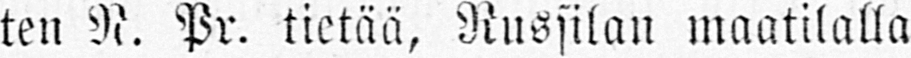ten N. Pr. tietää, Russilan maatilalla
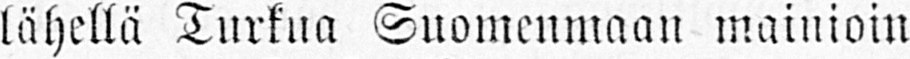lähellä Turkua Suomenmaan mainioin
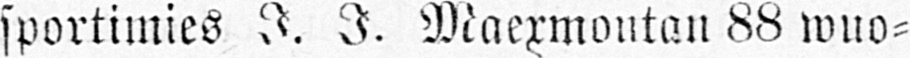sportimies J. J. Maexmontan 88 wuo-
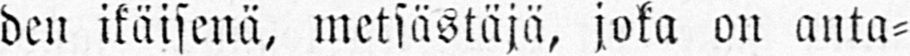den ikäisenä, metsästäjä, joka on anta-
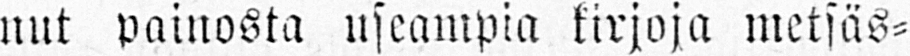nut painosta useampia kirjoja metsäs-
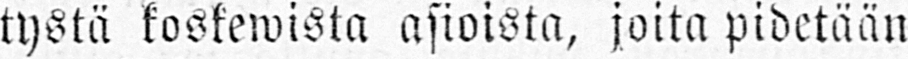tystä koskewista asioista, joita pidetään
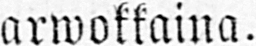arwokkaina.
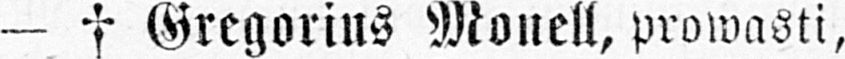— † Gregorius Monell, prowasti,
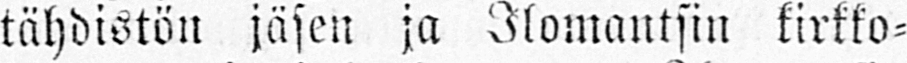tähdistön jäsen ja Ilomantsin kirkko-
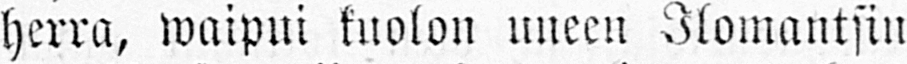herra, waipui kuolon uneen Ilomantsin
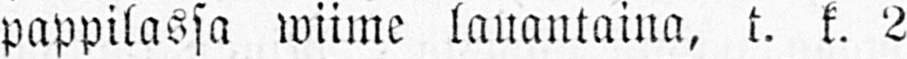pappilassa wiime lauantaina, t. k. 2
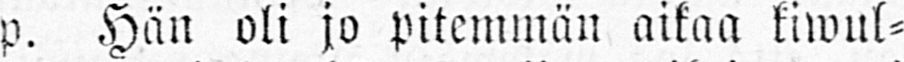p. Hän oli jo pitemmän aikaa kiwul-
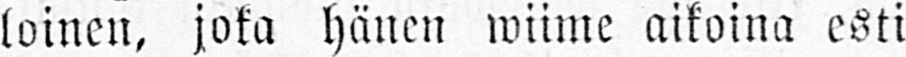loinen, joka hänen wiime aikoina esti
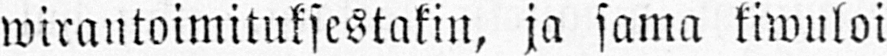wirantoimituksestakin, ja sama kiwuloi-
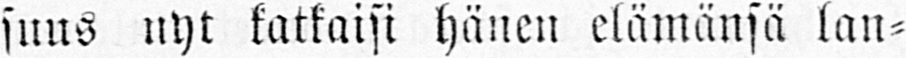suus nyt katkaisi hänen elämänsä lan-
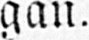gan.
